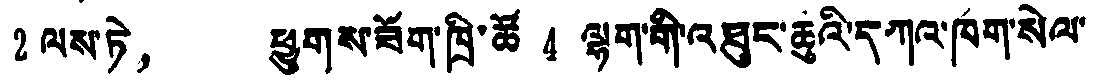2 ལས་ཏེ， ཕྱུགས་ཟོག་ཁྲི་ཚོ 4 ལྷག་གི་འཐུང་ཆུའི་དཀའ་ཁག་སེལ་
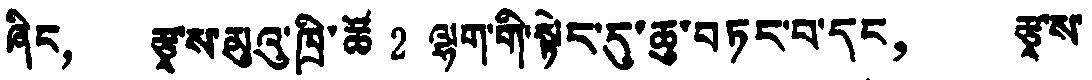ཞིང， རྩྭ་ས་མུའུ་ཁྲི་ཚོ 2 ལྷག་གི་སྟེང་དུ་ཆུ་བཏང་བ་དང， རྩྭ་ས་
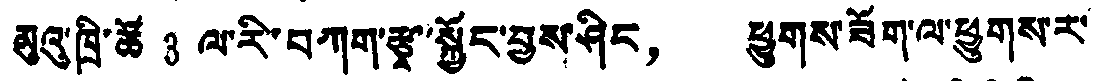མུའུ་ཁྲི་ཚོ 3 ལ་རི་བཀག་རྩྭ་སྐྱོང་བྱས་ཤིང， ཕྱུགས་ཟོག་ལ་ཕྱུགས་ར་
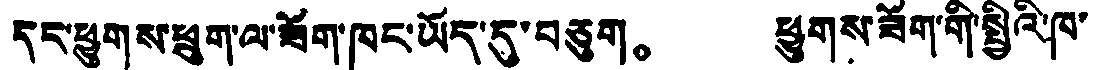དང་ཕུགས་ཕྱུག་ལ་ཟོག་ཁང་ཡོད་དུ་བཅུག。 ཕྱུགས་ཟོག་གི་སྤྱིའི་ཁ་
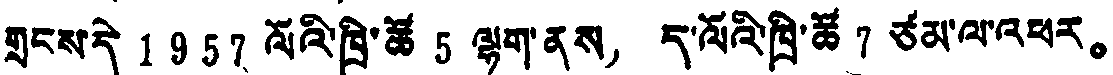གྲངས་དེ 1957 ལོའི་ཁྲི་ཚོ 5 ལྷག་ནས， ད་ལོའི་ཁྲི་ཚོ 7 ཙམ་ལ་འཕར。
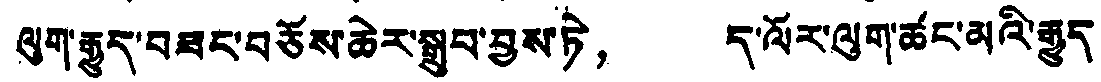ལུག་རྒྱུད་བཟང་བཅོས་ཆེར་སྒྲུབ་བྱས་ཏེ， ད་ལོར་ལུག་ཚང་མའི་རྒྱུད
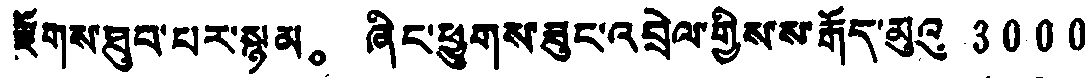རྫོགས་ཐུབ་པར་སྙམ。 ཞིང་ཕྱུགས་ཟུང་འབྲེལ་གྱིས་ས་རྒོད་མུའུ 3000
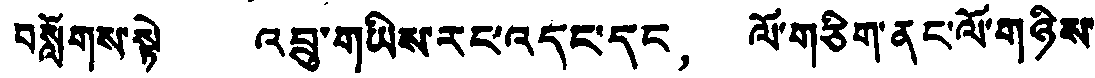བསློགས་སྟེ འབྲུ་གཡིས་རང་འདང་དང， ལོ་གཅིག་ནང་ལོ་གཉིས་
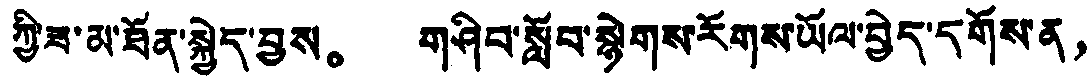ཀྱི་ཟ་མ་ཐོན་སྐྱེད་བྱས。 གཤིབ་སློབ་སྙེགས་རོགས་ཡོལ་བྱེད་དགོས་ན，
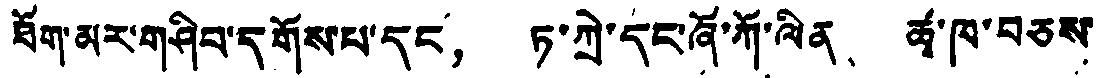ཐོག་མར་གཤིབ་དགོས་པ་དང， ཏ་ཀྲེ་དང་ཞོ་ཀོ་ལིན、 ཚྭ་ཁ་བཅས
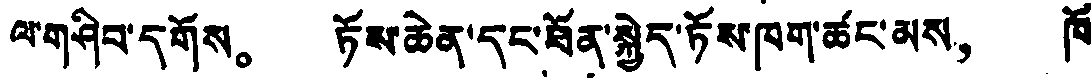ལ་གཤིབ་དགོས。 ཏོས་ཆེན་དང་ཐོན་སྐྱེད་ཏོས་ཁག་ཚང་མས， ཁོ་
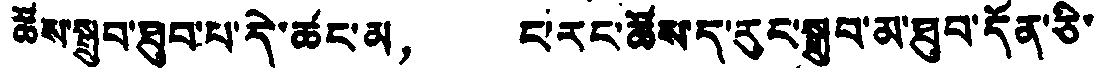ཚེས་སྒྲུབ་ཐུབ་པ་དེ་ཚང་མ， པ་རང་ཚོས་ད་རུང་སྒྲུབ་མ་ཐུབ་དོན་ཅི་
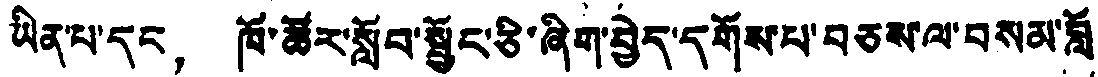ཡིན་པ་དང， ཁོ་ཚོར་སློབ་སྦྱོང་ཅི་ཞིག་བྱེད་དགོས་པ་བཅས་ལ་བསམ་བློ་
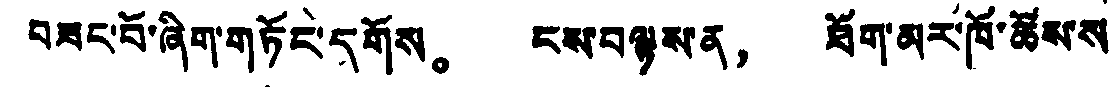བཟང་བོ་ཞིག་གཏོང་དགོས。 ངས་བལྟས་ན， ཐོག་མར་ཁོ་ཚོས་ས་
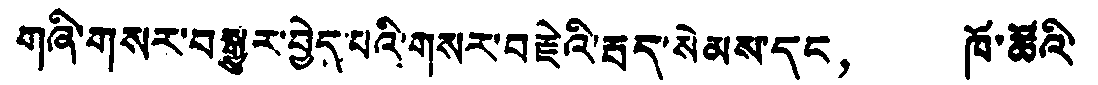གཞི་གསར་བསྒྱུར་བྱེད་པའི་གསར་བརྗེའི་རྦད་སེམས་དང， ཁོ་ཚོའི་
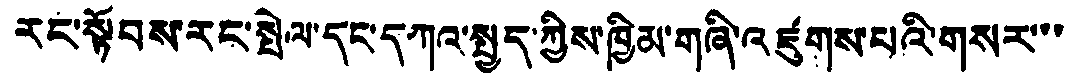རང་སྟོབས་རང་སྤེལ་དང་དཀའ་སྤྱད་ཀྱིས་ཁྱིམ་གཞི་འཛུགས་པའི་གསར་་་
